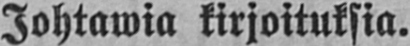Johtawia kirjoituksia.
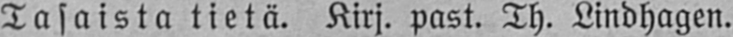Tasaista tietä. Kirj. past. Th. Lindhagen.
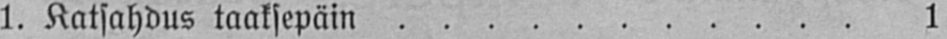1. Katsahdus taaksepäin 1
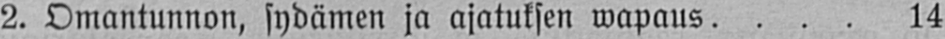2. Omantunnon, sydämen ja ajatuksen wapaus 14
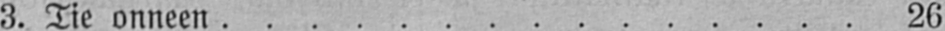3. Tie onneen 26
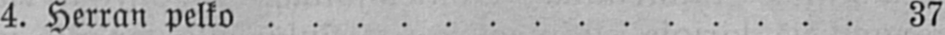4. Herran pelko 37
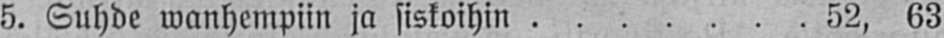5. Suhde wanhempiin ja siskoihin 52, 63
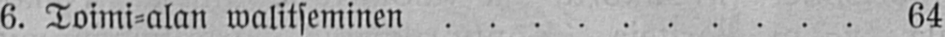6. Toimi-alan walitseminen 64
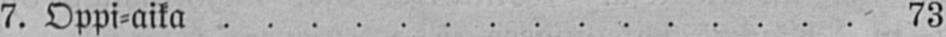7. Oppi-aika 73
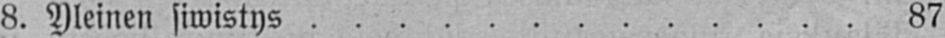8. Yleinen siwistys 87
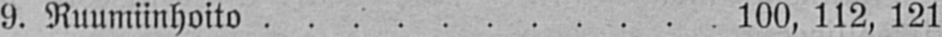9. Ruumiinhoito 100, 112, 121
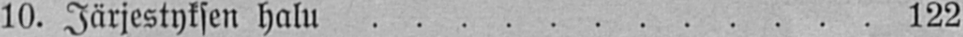10. Järjestyksen halu 122
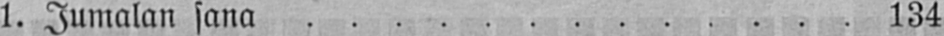11. Jumalan sana 134
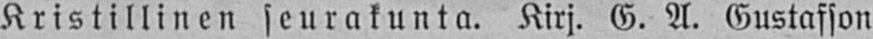Kristillinen seurakunta. Kirj. G. A. Gustafson
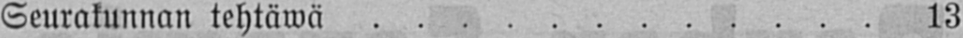Seurakunnan tehtäwä 13
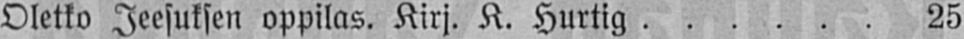Oletko Jeesuksen oppilas. Kirj. K. Hurtig 25
